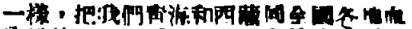一樣，把我們靑海和西藏同全國各地血
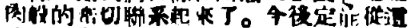肉般的密切聯系起來了。今後定能從這
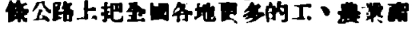條公路上把全國各地更多的工、農業產
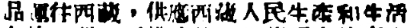品運往西藏，供應西藏人民生產和生活
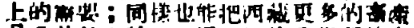上的需要；同樣也能把西藏更多的畜產
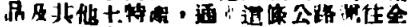品及其他土特產，通過這條公路運往全
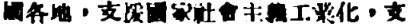國各地，支援國家社會主義工業化，支
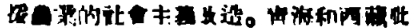援農業的社會主義改造。靑海和西藏毗
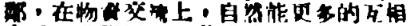鄰，在物資交流上，自然能更多的互相
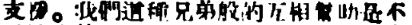支援。我們這種兄弟般的互相幫助是不
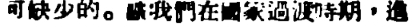可缺少的。讓我們在國家過渡時期，進
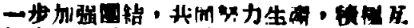一步加強團結，共同努力生產，積極互
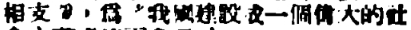相支援，爲將我國建設成一個偉大的社
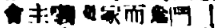會主義國家而戰鬥！
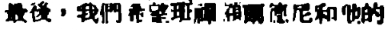最後，我們希望班禪額爾德尼和他的
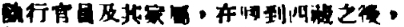隨行官員及其家屬，在囘到西藏之後，
